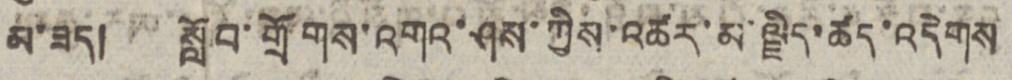མ་ཟད། སློབ་གྲོགས་འགའ་ཤས་ཀྱིས་འཚར་མ་ལྗིད་ཚད་འདེགས
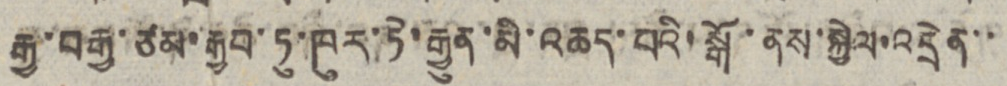རྒྱ་བརྒྱ་ཙམ་རྒྱབ་ཏུ་ཁུར་ཏེ་རྒྱུན་མི་འཆད་པའི་སྒོ་ནས་སྐྱེལ་འདྲེན་་
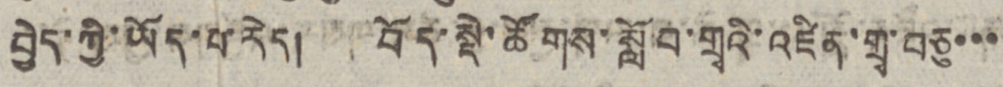བྱེད་ཀྱི་ཡོད་པ་རེད། བོད་སྡེ་ཚགོས་སློབ་གྲྭའི་འཛིན་གྲྭ་བཅུ་་་
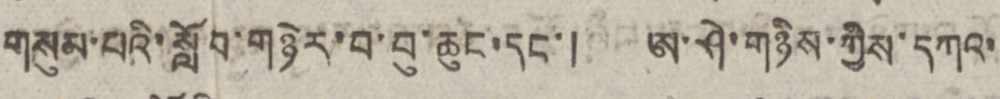གསུམ་པའི་སློབ་གཉེར་བ་བུ་ཆུང་དང་། ཨ་ཤེ་གཉིས་ཀྱིས་དཀའ་
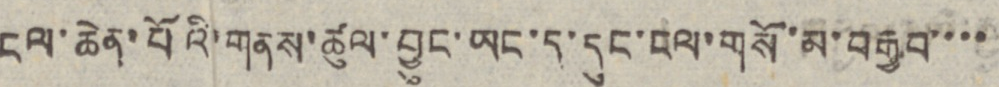ངལ་ཆེན་པོའི་གནས་ཚུལ་བྱུང་ཡང་ད་དུང་ངལ་གསོ་མ་བརྒྱབ་་་་
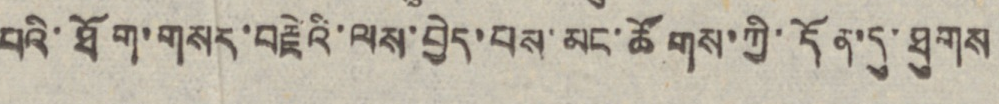བའི་ཐོག་གསར་བརྗེའི་ལས་བྱེད་པས་མང་ཚོགས་ཀྱི་དོན་དུ་ཐུགས
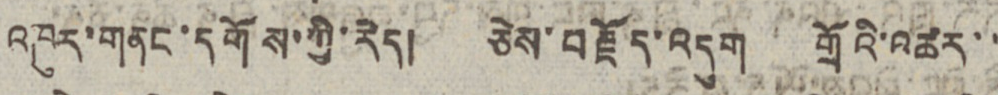འཁུར་གནང་དགོས་ཀྱི་རེད། ཅེས་བརྗོད་འདུག གྲོའི་འཚར་་
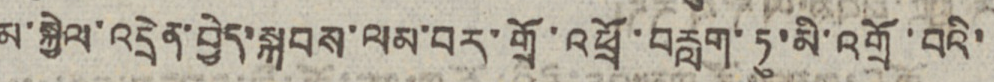མ་སྐྱེལ་འདྲེན་བྱེད་སྐབས་ལམ་བར་གྲོ་འཕྲོ་བརླག་ཏུ་མི་འགྲོ་བའི་
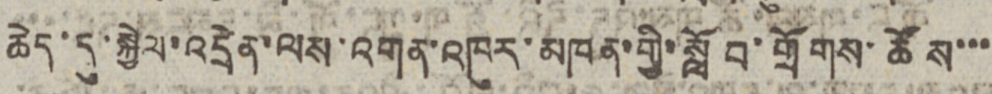ཆེད་དུ་སྐྱེལ་འདྲེན་ལས་འགན་འཁུར་མཁན་གྱི་སློབ་གྲོགས་ཚོས་་་
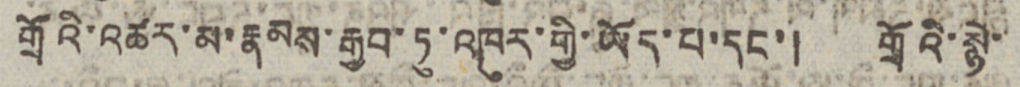གྲོའི་འཚར་མ་རྣམས་རྒྱབ་ཏུ་འཁུར་གྱི་ཡོད་པ་དང་། གྲོའི་སྙེ་
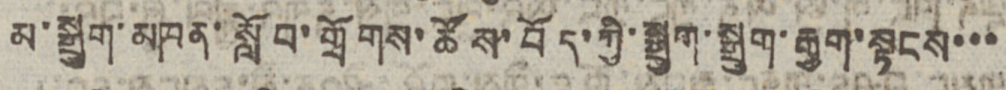མ་སྒྲུག་མཁན་སློབ་གྲོགས་ཚོས་བོད་ཀྱི་སྒྲུག་སྒྲུག་རྒྱག་སྟངས་་་
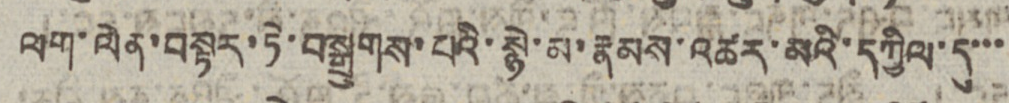ལག་ལེན་བསྟར་ཏེ་བསྒྲུགས་པའི་སྙེ་མ་རྣམས་འཚར་མའི་དཀྱིལ་དུ་་་
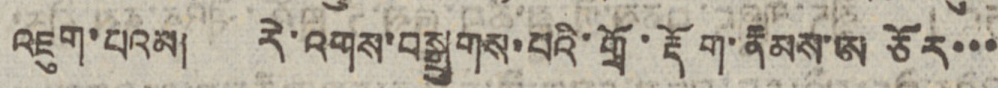འཇུག་པའམ། རེ་འགས་བསྒྲུགས་པའི་གྲོ་རྡོག་རྣམས་ཨ ཅོར་་་
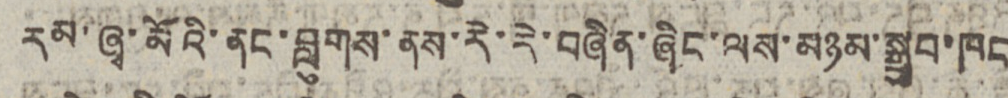རམ་ཞྭ་མོའི་ནང་བླུགས་ནས་རེ་རེ་བཞིན་ཞིང་ལས་མཉམ་སྒྲུབ་ཁང
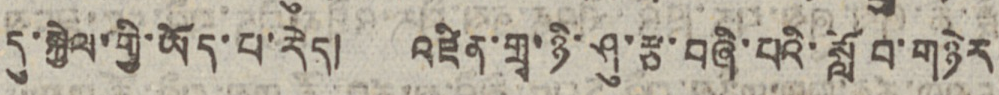དུ་སྐྱེལ་གྱི་ཡོད་པ་རེད། འཛིན་གྲྭ་ཉི་ཤུ་རྩ་བཞི་པའི་སློབ་གཉེར
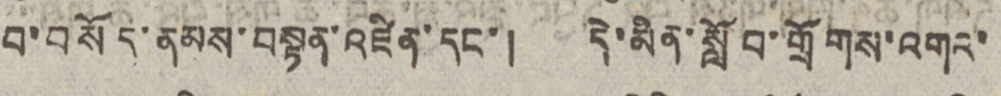བ་བསོད་ནམས་བསྟན་འཛིན་དང་། དེ་མིན་སློབ་གྲོགས་འགའ་
